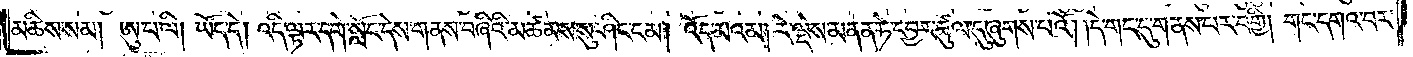མཆིས་སམ། ཨུ་པ་ལི། ཡོད་དེ། འདི་ལྟར་དགེ་སློང་དེས་གནས་བཞིའི་མཚམས་སུ་ཤིང་ངམ། འོད་མའམ། རེ་ལྡེས་མནན་ཏེ་དབྱར་ཚུལ་དུ་ཞུགས་པའོ། །དེ་གང་དུ་གནས་པར་བགྱི། གང་དགའ་བར་
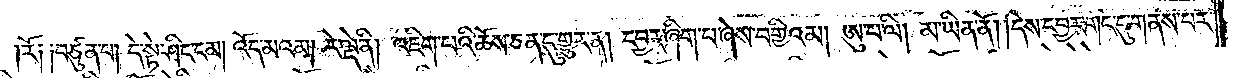།རོ༑ ༑བཙུན་པ། དེ་སྟེ་ཤིང་ངམ། འོད་མའམ། རེ་ལྡེ་ནི། འཇིག་པའི་ཆོས་ཅན་དུ་གྱུར་ན། དབྱར་ཞིག་པ་ཞེས་བགྱིའམ། ཨུ་པ་ལི། མ་ཡིན་ནོ། །དེས་དབྱར་གང་དུ་གནས་པར་
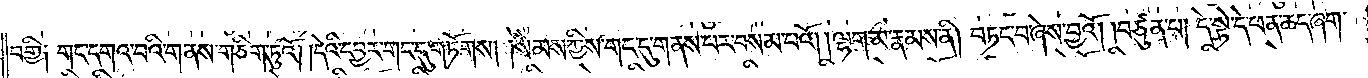བགྱི༑ གང་དགའ་བའི་གནས་གཅིག་ཏུའོ། །དེའི་དབྱར་གང་དུ་གཏོགས། །སེམས་ཀྱིས་གང་དུ་གནས་པར་བསམ་པའོ། །ལྷག་མ་རྣམས་ནི། བཏང་བ་ཞེས་བྱའོ། །བཙུན་པ། དེ་སྟེ་དེ་ཕན་ཆད་ཞག་
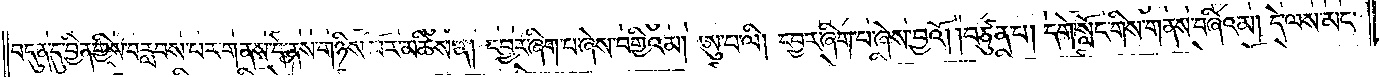བདུན་དུ་བྱིན་གྱིས་བརླབས་པར་གནས་དེ་ནས་གཉིས་པོར་མཆིས་ན། དབྱར་ཞིག་པ་ཞེས་བགྱིའམ། ཨུ་པ་ལི། དབྱར་ཞིག་པ་ཞེས་བྱའོ། །བཙུན་པ། དགེ་སློང་གིས་གནས་བཞིའམ། དེ་ལས་མང་
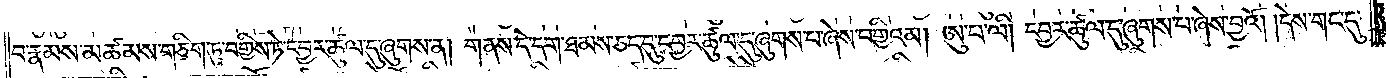བ་རྣམས་མཚམས་གཅིག་ཏུ་བགྱིས་ཏེ་དབྱར་ཚུལ་དུ་ཞུགས་ན། གནས་དེ་དག་ཐམས་ཅད་དུ་དབྱར་ཚུལ་དུ་ཞུགས་པ་ཞེས་བགྱིའམ། ཨུ་པ་ལི། དབྱར་ཚུལ་དུ་ཞུགས་པ་ཞེས་བྱའོ། །དེས་གང་དུ་
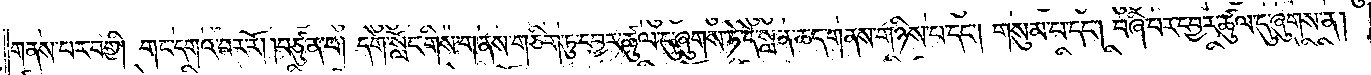གནས་པར་བགྱི། གང་དགའ་བར་རོ། །བཙུན་པ། དགེ་སློང་གིས་གནས་གཅིག་ཏུ་དབྱར་ཚུལ་དུ་ཞུགས་ཏེ་དེ་སླན་ཆད་གནས་གཉིས་པ་དང༌། གསུམ་པ་དང༌། བཞི་པར་དབྱར་ཚུལ་དུ་ཞུགས་ན།
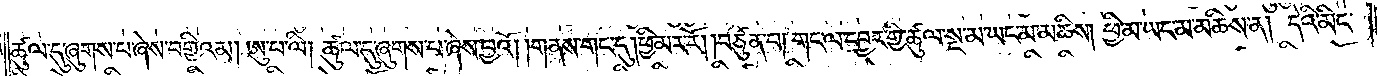ཚུལ་དུ་ཞུགས་པ་ཞེས་བགྱིའམ། ཨུ་པ་ལི། ཚུལ་དུ་ཞུགས་པ་ཞེས་བྱའོ། །གནས་གང་དུ། ཕྱི་མར་རོ། །བཙུན་པ། གང་ལ་དབྱར་གྱི་ཚུལ་སྔ་མ་ཡང་མ་མཆིས། ཕྱི་མ་ཡང་མ་མཆིས་ན། དེའི་མིང་
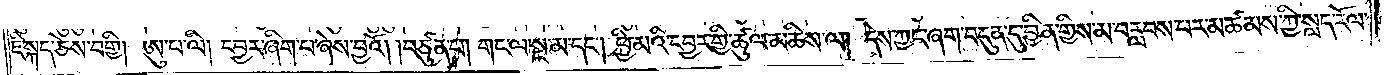ཇི་སྐད་ཅེས་བགྱི། ཨུ་པ་ལི། དབྱར་ཞིག་པ་ཞེས་བྱའོ། །བཙུན་པ། གང་ལ་སྔ་མ་དང༌། ཕྱི་མའི་དབྱར་གྱི་ཚུལ་མཆིས་ལ། དེས་ཀྱང་ཞག་བདུན་དུ་བྱིན་གྱིས་མ་བརླབས་པར་མཚམས་ཀྱི་སླད་རོལ་
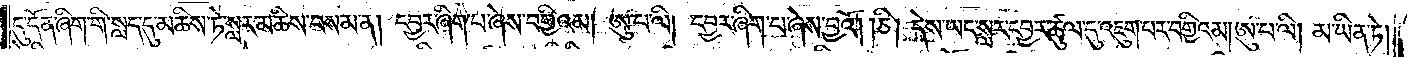དུ་དོན་ཞིག་གི་སླད་དུ་མཆིས་ཏེ་སླར་མཆིས་བསམ་ན། དབྱར་ཞིག་པ་ཞེས་བགྱིའམ། ཨུ་པ་ལི། དབྱར་ཞིག་པ་ཞེས་བྱའོ། །ཅི། དེས་ཡང་སླར་དབྱར་ཚུལ་དུ་འཇུག་པར་བགྱིའམ། ཨུ་པ་ལི། མ་ཡིན་ཏེ།
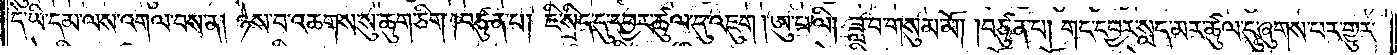དེ་ཡི་དམ་ལས་འགལ་བས་ན། ཉེས་བ་འཆགས་སུ་ཆུག་ཅིག །བཙུན་པ། ཇི་སྲིད་དུ་དབྱར་ཚུལ་དུ་འཇུག །ཨུ་པ་ལི། ཟླ་བ་གསུམ་མོ། །བཙུན་པ། གང་དབྱར་སླད་མར་ཚུལ་དུ་ཞུགས་པར་གྱུར་
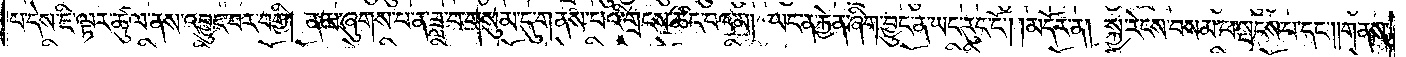པ་དེས་ཇི་ལྟར་ཚུལ་ནས་འབྱུང་བར་བགྱི། ནམ་ཞུགས་པ་ན་ཟླ་བ་གསུམ་དུ་གནས་པའི་གྲངས་ཚང་བའམ། ཡང་ན་རྐྱེན་ཞིག་བྱུང་ན་ཡང་རུང་ངོ༌། །མདོར་ན། སྐྱ་རེངས་བསམ་པ་སྤངས་པ་དང༌། །གནས་
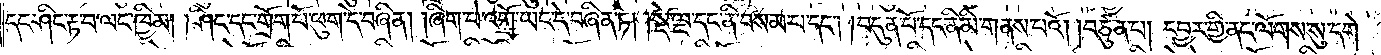དང་ཤིང་རྟ་བ་ལང་ཁྱིམ། །ཤིང་དང་གྲོག་པོ་ཕུག་དེ་བཞིན། །ཞིག་པ་འགྲོ་ཡང་དེ་བཞིན་ཏེ། །སྡེ་ལྔ་དང་ནི་བསམ་པ་དང༌། །བདུན་པོ་དང་ནི་མི་གནས་པའོ། །བཙུན་པ། དབྱར་གྱི་ནང་ལོགས་སུ་དགེ་
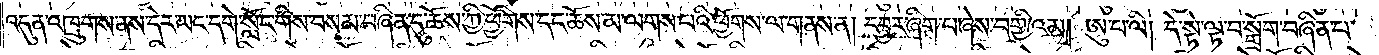འདུན་འཁྲུགས་ནས་དེར་ཡང་དགེ་སློང་གིས་བསམ་བཞིན་དུ་ཆོས་ཀྱི་ཕྱོགས་དང་ཆོས་མ་ལགས་པའི་ཕྱོགས་ལ་གནས་ན། །དབྱར་ཞིག་པ་ཞེས་བགྱིའམ། ཨུ་པ་ལི། དེ་སྟེ་ལྟ་བ་སྒྲོག་བཞིན་པ་
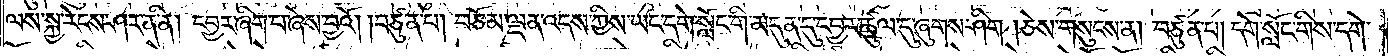ལས་སྐྱ་རེངས་ཤར་ན་ནི། དབྱར་ཞིག་བ་ཞེས་བྱའོ། །བཙུན་པ། བཅོམ་ལྡན་འདས་ཀྱིས་ཡང་དགེ་སློང་གི་མདུན་དུ་དབྱར་ཚུལ་དུ་ཞུགས་ཤིག །ཅེས་གསུངས་ན། བཙུན་པ། དགེ་སློང་གིས་དགེ་
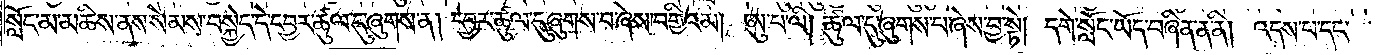སློང་མ་མཆིས་ནས་སེམས་བསྐྱེད་དེ་དབྱར་ཚུལ་དུ་ཞུགས་ན། དབྱར་ཚུལ་དུ་ཞུགས་པ་ཞེས་བགྱིའམ། ཨུ་པ་ལི། ཚུལ་དུ་ཞུགས་པ་ཞེས་བྱ་སྟེ། དགེ་སློང་ཡོད་བཞིན་ན་ནི། འདས་པ་དང་
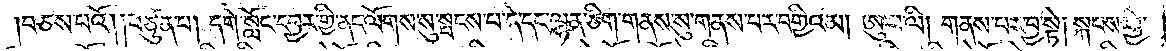།བཅས་པའོ། །བཙུན་པ། དགེ་སློང་དབྱར་གྱི་ནང་ལོགས་སུ་སྤངས་པ་དེ་དང་ལྷན་ཅིག་གནས་སུ་གནས་པར་བགྱིའམ། ཨུ་པ་ལི། གནས་པར་བྱ་སྟེ། སྐབས་ཕྱེ་
